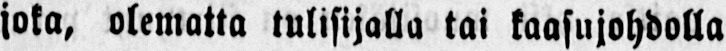joka, olematta tulisijalla tai kaasujohdolla
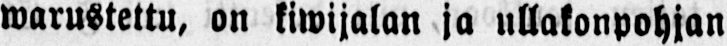warustettu, on kiwijalan ja ullakonpohjan
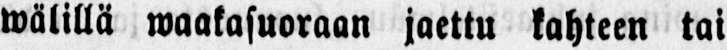wälillä waakasuoraan jaettu kahteen tai
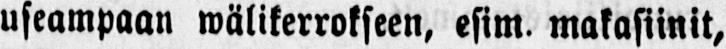useampaan wälikerrokseen, esim, makasiinit,
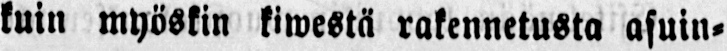kuin myöskin kiwestä rakennetusta asuin-
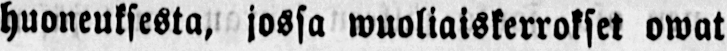huoneuksesta, jossa wuoliaiskerrokset owat
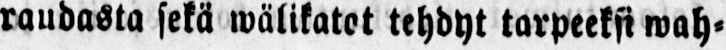raudasta sekä wälikatot tehdyt tarpeeksi wah-
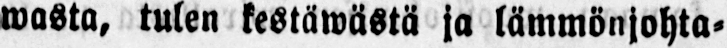wasta, tulen kestäwästä ja lämmönjohta-
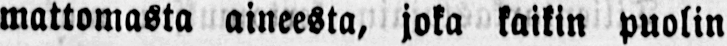mattomasta aineesta, joka kaikin puolin
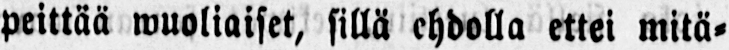peittää wuoliaiset, sillä ehdolla ettei mitä-
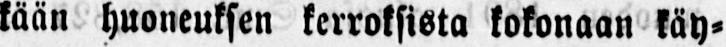kään huoneuksen kerroksista kokonaan käy-
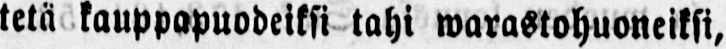tetä kauppapuodeiksi tahi warastohuoneiksi,
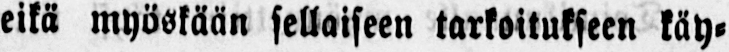eikä myöskään sellaiseen tarkoitukseen käy-
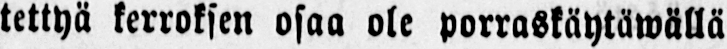tettyä kerroksen osaa ole porraskäytäwällä
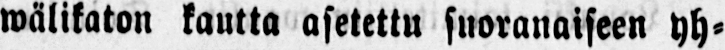wälikaton kautta asetettu suoranaiseen yh-
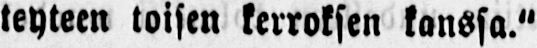teyteen toisen kerroksen kanssa."
